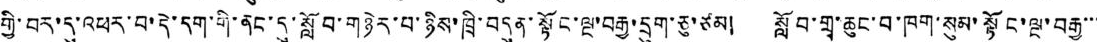གྱི་བར་དུ་འཕར་བ་དེ་དག་གི་ནང་དུ་སློབ་གཉེར་པ་ཉིས་ཁྲི་བདུན་སྟོང་ལྔ་བརྒྱ་དྲུག་ཅུ་ཙམ། སློབ་གྲྭ་ཆུང་བ་ཁག་སུམ་སྟོང་ལྔ་བརྒྱ་་་
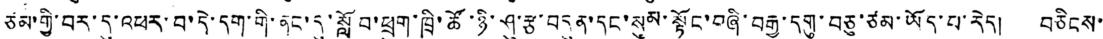ཙམ་གྱི་བར་དུ་འཕར་བ་དེ་དག་གི་ནང་དུ་སློབ་ཕྲུག་ཁྲི་ཚོ་ཉི་ཤུ་རྩ་བདུན་དང་སུམ་སྟོང་བཞི་བརྒྱ་དགུ་བཅུ་ཙམ་ཡོད་པ་རེད། བཅིངས་
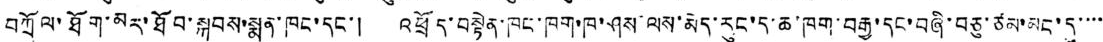བཀྲོལ་ཐོག་མར་ཐོབ་སྐབས་སྨན་ཁང་དང་། འཕྲོད་བསྟེན་ཁང་ཁག་ཁ་ཤས་ལས་མེད་རུང་ད་ཆ་ཁག་བརྒྱ་དང་བཞི་བཅུ་ཙམ་མང་དུ་་་་
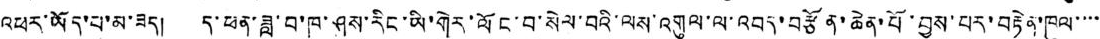འཕར་ཡོད་པ་མ་ཟད། ད་ཕན་ཟླ་བ་ཁ་ཤས་རིང་ཡི་གེར་ལོང་བ་སེལ་བའི་ལས་འགུལ་ལ་འབད་བརྩོན་ཆེན་པོ་བྱས་པར་བརྟེན་ཁུལ་་་་
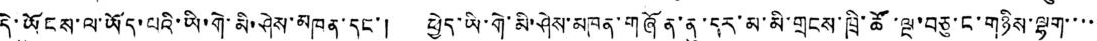དེ་ཡོངས་ལ་ཡོད་པའི་ཡི་གེ་མི་ཤེས་མཁན་དང་། ཕྱེད་ཡི་གེ་མི་ཤེས་མཁན་གཞོན་ནུ་དར་མ་མི་གྲངས་ཁྲི་ཚོ་ལྔ་བཅུ་ང་གཉིས་ལྷག་་་་
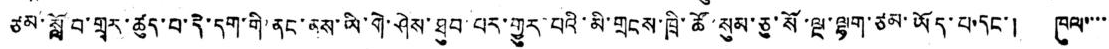ཙམ་སློབ་གྲྭར་ཚུད་པ་དེ་དག་གི་ནང་ནས་ཡི་གེ་ཤེས་ཐུབ་པར་གྱུར་པའི་མི་གྲངས་ཁྲི་ཚོ་སུམ་ཅུ་སོ་ལྔ་ལྷག་ཙམ་ཡོད་པ་དང་། ཁུལ་་་་
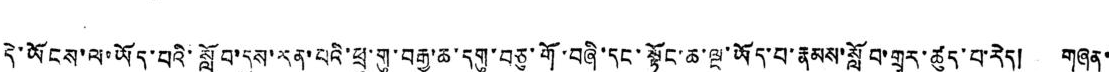དེ་ཡོངས་ལ་ཡོད་པའི་སློབ་དུས་རན་པའི་ཕྲུ་གུ་བརྒྱ་ཆ་དགུ་བཅུ་གོ་བཞི་དང་སྟོང་ཆ་ལྔ་ཡོད་པ་རྣམས་སློབ་གྲྭར་ཚུད་པ་རེད། གཞན་
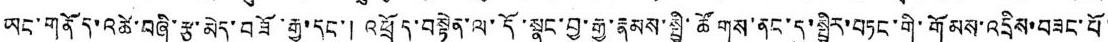ཡང་གནོད་འཚེ་བཞི་རྩ་མེད་བཟོ་རྒྱུ་དང་། འཕྲོད་བསྟེན་ལ་དོ་སྣང་བྱ་རྒྱུ་རྣམས་སྤྱི་ཚོགས་ནང་དུ་སྤྱིར་བཏང་གི་གོམས་འདྲིས་བཟང་པོ་
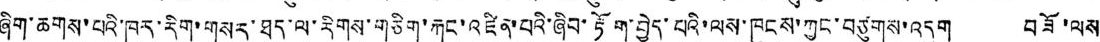ཞིག་ཆགས་པའི་ཁར་རིག་གསར་ཐད་ལ་རིགས་གཅིག་རྐང་འཛིན་པའི་ཞིབ་རྟོག་བྱེད་པའི་ལས་ཁུངས་ཀྱང་བཙུགས་འདུག བཟོ་ལས་
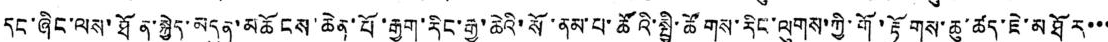དང་ཞིང་ལས་ཐོན་སྐྱེད་མདུན་མཆོངས་ཆེན་པོ་རྒྱག་རིང་རྒྱ་ཆེའི་སོ་ནམ་པ་ཚོའི་སྤྱི་ཚོགས་རིང་ལུགས་ཀྱི་གོ་རྟོགས་ཆུ་ཚུད་ཇེ་མཐོར་་་
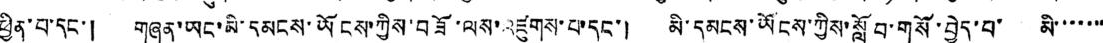ཕྱིན་པ་དང་། གཞན་ཡང་མི་དམངས་ཡོངས་ཀྱིས་བཟོ་ལས་འཛུགས་པ་དང་། མི་དམངས་ཡོངས་ཀྱིས་སློབ་གསོ་བྱེད་པ་ མི་་་་་་་
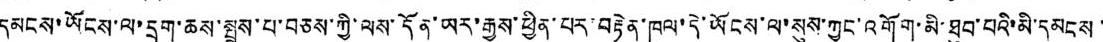དམངས་ཡོངས་ལ་དྲག་ཆས་སྤྲས་པ་བཅས་ཀྱི་ལས་དོན་ཡར་རྒྱས་ཕྱིན་པར་བརྟེན་ཁུལ་དེ་ཡོནས་ལ་སུས་ཀྱང་འགོག་མི་ཐུབ་པའི་མི་དམངས་
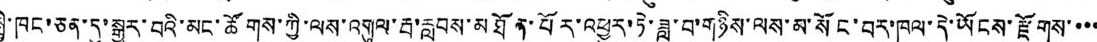སྤྱི་ཁང་ཅན་དུ་སྒྱུར་པའི་མང་ཚོགས་ཀྱི་ལས་འགུལ་རྦ་རླབས་མཐོན་པོར་འཕྱུར་ཏེ་ཟླ་བ་གཉིས་ལས་མ་སོང་བར་ཁུལ་དེ་ཡོངས་རྫོགས་་་་
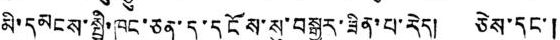མི་དམངས་སྤྱི་ཁང་ཅན་དུ་དངོས་སུ་བསྒྱུར་ཟིན་པ་རེད། ཅེས་དང་།
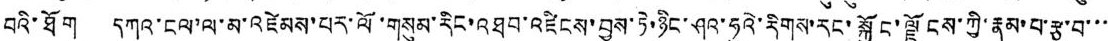བའི་ཐོག དཀའ་ངལ་ལ་མ་འཛེམས་པར་ལོ་གསུམ་རིང་འཐབ་འཛིངས་བྱས་ཏེ་ཉིང་ཤའ་ཧུའེ་རིགས་རང་སྐྱོང་ལྗོངས་ཀྱི་རྣམ་པ་རྩ་བ་་་
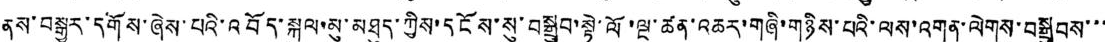ནས་བསྒྱུར་དགོས་ཞེས་པའི་འབོད་སྐུལ་མུ་མཐུད་ཀྱིས་དངོས་སུ་བསྒྲུབ་སྟེ་ལོ་ལྔ་ཚན་འཆར་གཞི་གཉིས་པའི་ལས་འགན་ལེགས་བསྒྲུབས་་་
